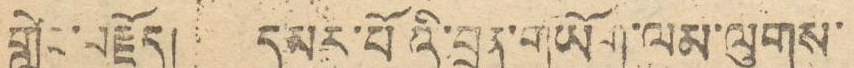གླེང་བརྗོད། དམར་པོའི་བྲན་གཡོག་ལམ་ལུགས་
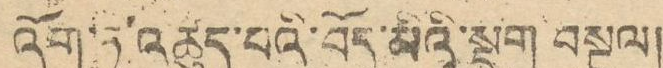འོག་ཏུ་འཚུད་པའི་བོད་མིའི་སྡུག བསྔལ།
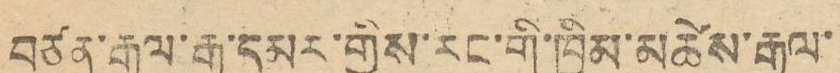བཙན་རྒྱལ་རྒྱ་དམར་གྱིས་རང་གི་ཁྱིམ་མཚེས་རྒྱལ་
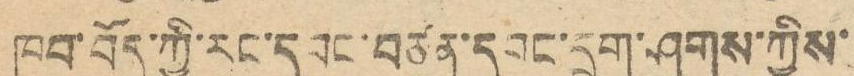ཁབ་བོད་ཀྱི་རང་དབང་བཙན་དབང་དྲག་ཤུགས་ཀྱིས་
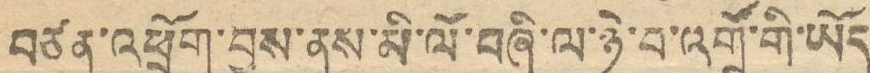བཙན་འཕྲོག་བྱས་ནས་མི་ལོ་བཞི་ལ་ཉེ་བ་འགྲོ་གི་ཡོད
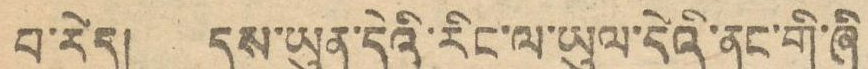བ་རེད། དུས་ཡུན་དེའི་རིང་ལ་ཡུལ་དེའི་ནང་གི་ཞི
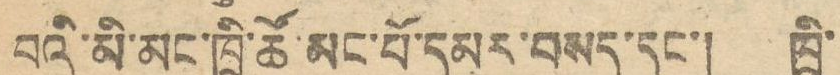བའི་མི་མང་ཁྲི་ཚོ་མང་པོ་དམར་བསད་དང་། ཁྲི་
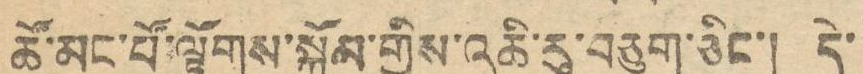ཚོ་མང་པོ་ལྟོགས་སྐོམ་གྱིས་འཆི་རུ་བཅུག་ཅིང་། དེ་
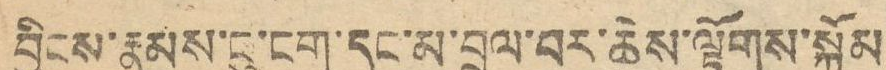བྱིངས་རྣམས་ངུ་ངག་དང་མ་བྲལ་བར་ཆེས་ལྟོགས་སྐོམ
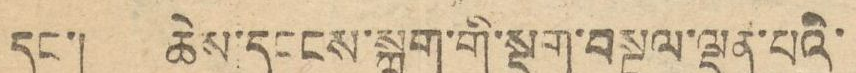དང་། ཆེས་དངངས་སྐྲག་གི་སྡུག་བསྔལ་ལྡན་པའི་
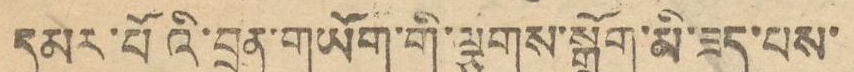དམར་པོའི་བྲན་གཡོག་གི་ལྕགས་སྒྲོག་མི་ཟད་པས་
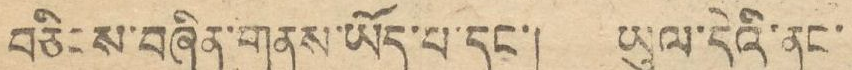བཅིངས་བཞིན་གནས་ཡོད་པ་དང་། ཡུལ་དེའི་ནང་
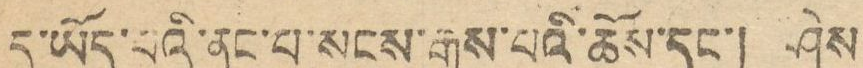དུ་ཡོད་པའི་ནང་པ་སངས་རྒྱས་པའི་ཆོས་དང་། ཤེས
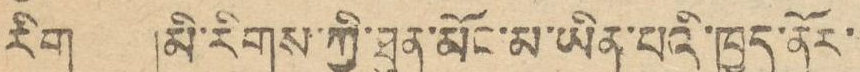རིག །མི་རིགས་ཀྱི་ཐུན་མོང་མ་ཡིན་པའི་ཁྱད་ནོར་
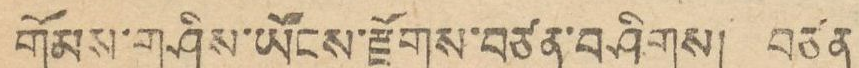གོམས་གཤིས་ཡོངས་རྫོགས་བཙན་བཤིགས། བཙན
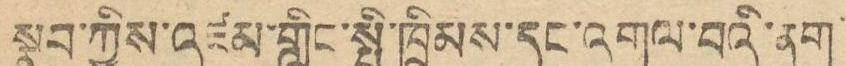སྣུབ་ཀྱིས་འཛམ་གླིང་སྤྱི་ཁྲིམས་དང་འགལ་བའི་ནག་
